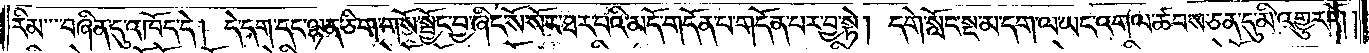རིམ་བཞིན་དུ་འཁོད་དེ། དེ་དག་དང་ལྷན་ཅིག་གསོ་སྦྱོང་བྱ་ཞིང་སོ་སོར་ཐར་པའི་མདོ་གདོན་བ་གདོན་པར་བྱ་སྟེ། དགེ་སློང་སྔ་མ་དག་ལ་ཡང་འགལ་ཚབས་ཅན་དུ་མི་འགྱུར་རོ། །
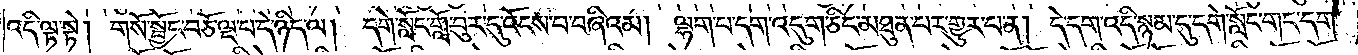འདི་ལྟ་སྟེ། གསོ་སྦྱོང་བཅོ་ལྔ་པ་དེ་ཉིད་ལ། དགེ་སློང་གློ་བུར་དུ་འོངས་པ་བཞིའམ། ལྷག་པ་དག་འདུག་ཅིང་མཐུན་པར་གྱུར་པ་ན། དེ་དག་འདི་སྙམ་དུ་དགེ་སློང་གང་དག་
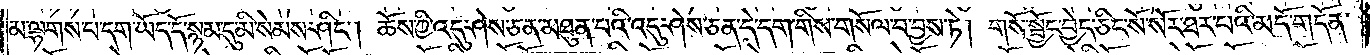མ་ལྷགས་པ་དག་ཡོད་དོ་སྙམ་དུ་མི་སེམས་ཤིང༌། ཆོས་ཀྱི་འདུ་ཤེས་ཅན་མཐུན་པའི་འདུ་ཤེས་ཅན་དེ་དག་གིས་གསོལ་བ་བྱས་ཏེ། གསོ་སྦྱོང་བྱེད་ཅིང་སོ་སོར་ཐར་པའི་མདོ་གདོན་
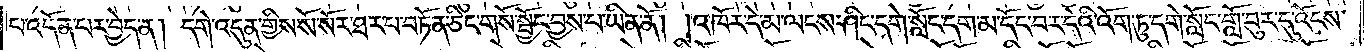པ་འདོན་པར་བྱེད་ན། དགེ་འདུན་གྱིས་སོ་སོར་ཐར་པ་བཏོན་ཅིང་གསོ་སྦྱོང་བྱས་པ་ཡིན་ནོ། །འཁོར་དེ་མ་ལངས་ཤིང་དགེ་སློང་དག་མ་དོང་བར་དེའི་འོག་ཏུ་དགེ་སློང་གློ་བུར་དུ་འོངས་
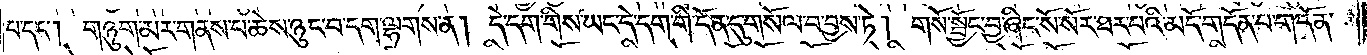པ་དང༌། གཉུག་མར་གནས་པ་ཆེས་ཉུང་བ་དག་ལྷགས་ན། དེ་དག་གིས་ཡང་དེ་དག་གི་དོན་དུ་གསོལ་བ་བྱས་ཏེ། གསོ་སྦྱོང་བྱ་ཞིང་སོ་སོར་ཐར་པའི་མདོ་གདོན་པ་གདོན་
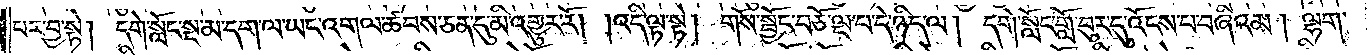པར་བྱ་སྟེ། དགེ་སློང་སྔ་མ་དག་ལ་ཡང་འགལ་ཚབས་ཅན་དུ་མི་འགྱུར་རོ། །འདི་ལྟ་སྟེ། གསོ་སྦྱོང་བཅོ་ལྔ་པ་དེ་ཉིད་ལ། དགེ་སློང་གློ་བུར་དུ་འོངས་པ་བཞིའམ  །ལྷག་
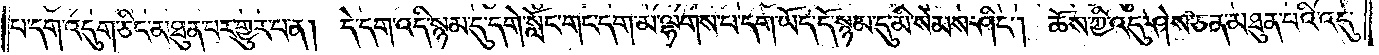པ་དག་འདུག་ཅིང་མཐུན་པར་གྱུར་པ་ན། དེ་དག་འདི་སྙམ་དུ་དགེ་སློང་གང་དག་མ་ལྷགས་པ་དག་ཡོད་དོ་སྙམ་དུ་མི་སེམས་ཤིང༌། ཆོས་ཀྱི་འདུ་ཤེས་ཅན་མཐུན་པའི་འདུ་
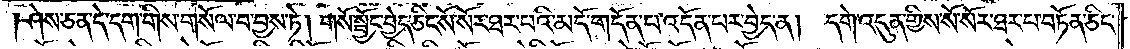ཤེས་ཅན་དེ་དག་གིས་གསོལ་བ་བྱས་ཏེ། གསོ་སྦྱོང་བྱེད་ཅིང་སོ་སོར་ཐར་པའི་མདོ་གདོན་པ་འདོན་པར་བྱེད་ན། དགེ་འདུན་གྱིས་སོ་སོར་ཐར་པ་བཏོན་ཅིང་
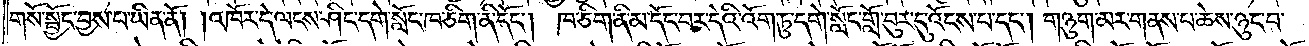གསོ་སྦྱོང་བྱས་པ་ཡིན་ནོ། །འཁོར་དེ་ལངས་ཤིང་དགེ་སློང་ཁ་ཅིག་ནི་དོང༌། ཁ་ཅིག་ནི་མ་དོང་བར་དེའི་འོག་ཏུ་དགེ་སློང་གློ་བུར་དུ་འོངས་པ་དང༌། གཉུག་མར་གནས་པ་ཆེས་ཉུང་བ་
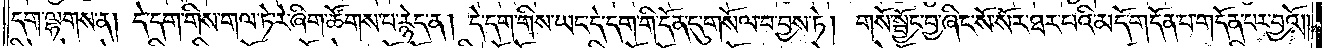དག་ལྷགས་ན། དེ་དག་གིས་གལ་ཏེ་རེ་ཞིག་ཚོགས་པ་རྙེད་ན། དེ་དག་གིས་ཡང་དེ་དག་གི་དོན་དུ་གསོལ་བ་བྱས་ཏེ། གསོ་སྦྱོང་བྱ་ཞིང་སོ་སོར་ཐར་པའི་མདོ་གདོན་པ་གདོན་པར་བྱའོ༎
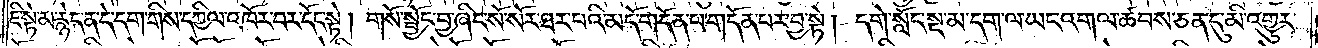ཇི་སྟེ་མ་རྙེད་ན་དེ་དག་གིས་དཀྱིལ་འཁོར་བར་དོང་སྟེ། གསོ་སྦྱོང་བྱ་ཞིང་སོ་སོར་ཐར་པའི་མདོ་གདོན་པ་གདོན་པར་བྱ་སྟེ། དགེ་སློང་སྔ་མ་དག་ལ་ཡང་འགལ་ཚབས་ཅན་དུ་མི་འགྱུར་
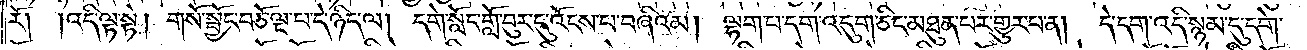རོ། །འདི་ལྟ་སྟེ། གསོ་སྦྱོང་བཅོ་ལྔ་པ་དེ་ཉིད་ལ། དགེ་སློང་གློ་བུར་དུ་འོངས་པ་བཞིའམ། ལྷག་པ་དག་འདུག་ཅིང་མཐུན་པར་གྱུར་པ་ན། དེ་དག་འདི་སྙམ་དུ་དགེ་
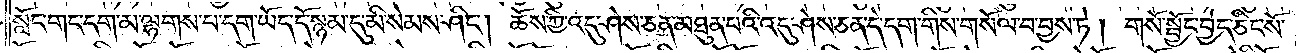སློང་གང་དག་མ་ལྷགས་པ་དག་ཡོད་དོ་སྙམ་དུ་མི་སེམས་ཤིང༌། ཆོས་ཀྱི་འདུ་ཤེས་ཅན་མཐུན་པའི་འདུ་ཤེས་ཅན་དེ་དག་གིས་གསོལ་བ་བྱས་ཏེ། གསོ་སྦྱོང་བྱེད་ཅིང་སོ་
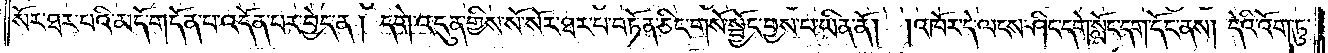སོར་ཐར་པའི་མདོ་གདོན་པ་འདོན་པར་བྱེད་ན། དགེ་འདུན་གྱིས་སོ་སོར་ཐར་བ་བཏོན་ཅིང་གསོ་སྦྱོང་བྱས་པ་ཡིན་ནོ། །འཁོར་དེ་ལངས་ཤིང་དགེ་སློང་དག་དོང་ནས། དེའི་འོག་ཏུ་
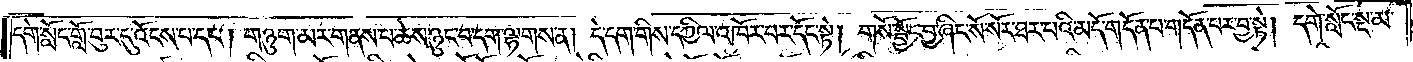དགེ་སློང་གློ་བུར་དུ་འོངས་པ་དང༌། གཉུག་མར་གནས་པ་ཆེས་ཉུང་བདག་ལྷགས་ན། དེ་དག་གིས་དཀྱིལ་འཁོར་བར་དོང་སྟེ། གསོ་སྦྱོང་བྱ་ཞིང་སོ་སོར་ཐར་པའི་མདོ་གདོན་པ་གདོན་པར་བྱ་སྟེ། དགེ་སློང་སྔ་མ་
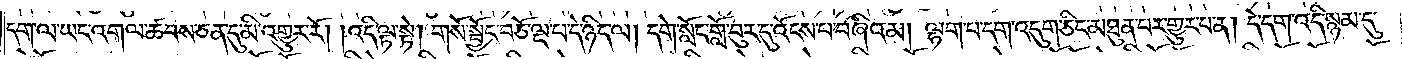དག་ལ་ཡང་འགལ་ཚབས་ཅན་དུ་མི་འགྱུར་རོ། །འདི་ལྟ་སྟེ། གསོ་སྦྱོང་བཅོ་ལྔ་པ་དེ་ཉིད་ལ། དགེ་སློང་གློ་བུར་དུ་འོངས་པ་བཞིའམ། ལྷག་པ་དག་འདུག་ཅིང་མཐུན་པར་གྱུར་པ་ན། དེ་དག་འདི་སྙམ་དུ་
